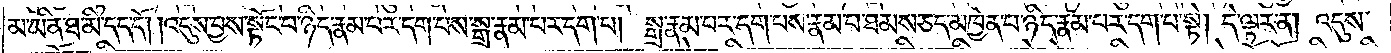མ་ཡིན་ཐ་མི་དད་དོ། །འདུས་བྱས་སྟོང་པ་ཉིད་རྣམ་པར་དག་པས་སྒྲ་རྣམ་པར་དག་པ། སྒྲ་རྣམ་པར་དག་པས་རྣམ་པ་ཐམས་ཅད་མཁྱེན་པ་ཉིད་རྣམ་པར་དག་པ་སྟེ། དེ་ལྟར་ན། འདུས་
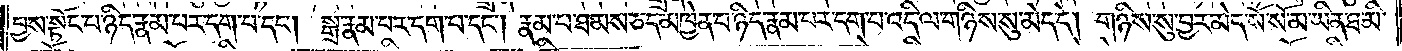བྱས་སྟོང་པ་ཉིད་རྣམ་པར་དག་པ་དང༌། སྒྲ་རྣམ་པར་དག་པ་དང༌། རྣམ་པ་ཐམས་ཅད་མཁྱེན་པ་ཉིད་རྣམ་པར་དག་པ་འདི་ལ་གཉིས་སུ་མེད་དེ། གཉིས་སུ་བྱར་མེད་སོ་སོ་མ་ཡིན་ཐ་མི་
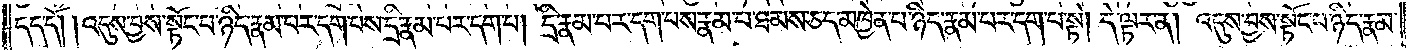དད་དོ། །འདུས་བྱས་སྟོང་པ་ཉིད་རྣམ་པར་དག་པས་དྲི་རྣམ་པར་དག་པ། དྲི་རྣམ་པར་དག་པས་རྣམ་པ་ཐམས་ཅད་མཁྱེན་པ་ཉིད་རྣམ་པར་དག་པ་སྟེ། དེ་ལྟར་ན། འདུས་བྱས་སྟོང་པ་ཉིད་རྣམ་
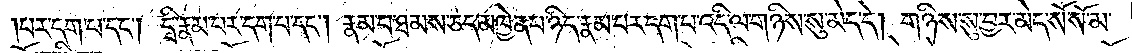པར་དག་པ་དང༌། དྲི་རྣམ་པར་དག་པ་དང༌། རྣམ་པ་ཐམས་ཅད་མཁྱེན་པ་ཉིད་རྣམ་པར་དག་པ་འདི་ལ་གཉིས་སུ་མེད་དེ། གཉིས་སུ་བྱར་མེད་སོ་སོ་མ་
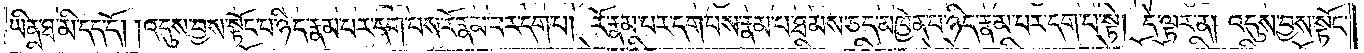ཡིན་ཐ་མི་དད་དོ། །འདུས་བྱས་སྟོང་པ་ཉིད་རྣམ་པར་དག་པས་རོ་རྣམ་པར་དག་པ། རོ་རྣམ་པར་དག་པས་རྣམ་པ་ཐམས་ཅད་མཁྱེན་པ་ཉིད་རྣམ་པར་དག་པ་སྟེ། དེ་ལྟར་ན། འདུས་བྱས་སྟོང་
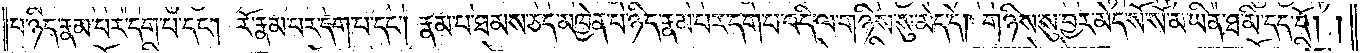པ་ཉིད་རྣམ་པར་དག་པ་དང༌། རོ་རྣམ་པར་དག་པ་དང༌། རྣམ་པ་ཐམས་ཅད་མཁྱེན་པ་ཉིད་རྣམ་པར་དག་པ་འདི་ལ་གཉིས་སུ་མེད་དེ། གཉིས་སུ་བྱར་མེད་སོ་སོ་མ་ཡིན་ཐ་མི་དད་དོ། །
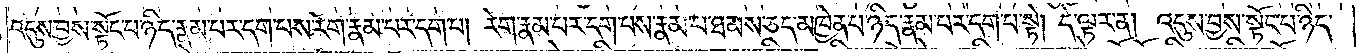འདུས་བྱས་སྟོང་པ་ཉིད་རྣམ་པར་དག་པས་རེག་རྣམ་པར་དག་པ། རེག་རྣམ་པར་དག་པས་རྣམ་པ་ཐམས་ཅད་མཁྱེན་པ་ཉིད་རྣམ་པར་དག་པ་སྟེ། དེ་ལྟར་ན། འདུས་བྱས་སྟོང་པ་ཉིད་
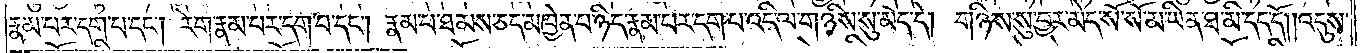རྣམ་པར་དག་པ་དང༌། རེག་རྣམ་པར་དག་པ་དང༌། རྣམ་པ་ཐམས་ཅད་མཁྱེན་པ་ཉིད་རྣམ་པར་དག་པ་འདི་ལ་གཉིས་སུ་མེད་དེ། གཉིས་སུ་བྱར་མེད་སོ་སོ་མ་ཡིན་ཐ་མི་དད་དོ། །འདུས་
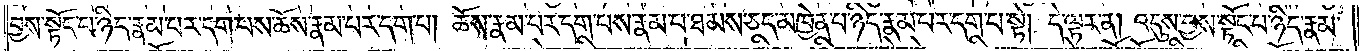བྱས་སྟོང་པ་ཉིད་རྣམ་པར་དག་པས་ཆོས་རྣམ་པར་དག་པ། ཆོས་རྣམ་པར་དག་པས་རྣམ་པ་ཐམས་ཅད་མཁྱེན་པ་ཉིད་རྣམ་པར་དག་པ་སྟེ། དེ་ལྟར་ན། འདུས་བྱས་སྟོང་པ་ཉིད་རྣམ་
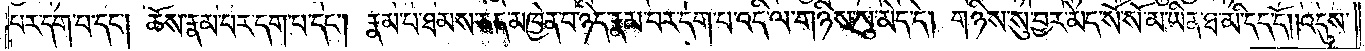པར་དག་པ་དང༌། ཆོས་རྣམ་པར་དག་པ་དང༌། རྣམ་པ་ཐམས་ཅད་མཁྱེན་པ་ཉིད་རྣམ་པར་དག་པ་འདི་ལ་གཉིས་སུ་མེད་དེ། གཉིས་སུ་བྱར་མེད་སོ་སོ་མ་ཡིན་ཐ་མི་དད་དོ། །འདུས་
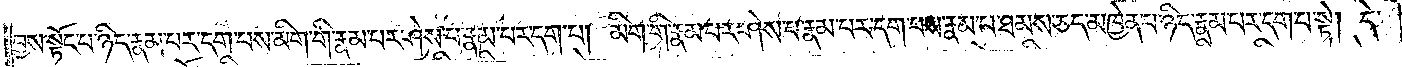བྱས་སྟོང་པ་ཉིད་རྣམ་པར་དག་པས་མིག་གི་རྣམ་པར་ཤེས་པ་རྣམ་པར་དག་པ། མིག་གི་རྣམ་པར་ཤེས་པ་རྣམ་པར་དག་པས་རྣམ་པ་ཐམས་ཅད་མཁྱེན་པ་ཉིད་རྣམ་པར་དག་པ་སྟེ། དེ་
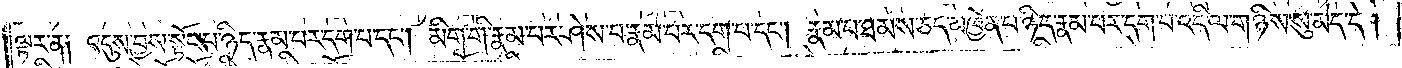ལྟར་ན༑ འདུས་བྱས་སྟོང་པ་ཉིད་རྣམ་པར་དག་པ་དང༌། མིག་གི་རྣམ་པར་ཤེས་པ་རྣམ་པར་དག་པ་དང༌། རྣམ་པ་ཐམས་ཅད་མཁྱེན་པ་ཉིད་རྣམ་པར་དག་པ་འདི་ལ་གཉིས་སུ་མེད་དེ།
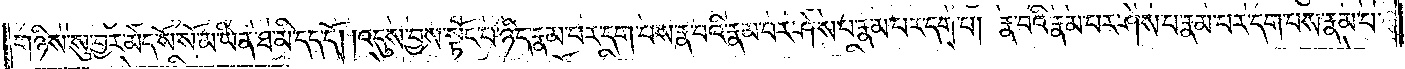གཉིས་སུ་བྱར་མེད་སོ་སོ་མ་ཡིན་ཐ་མི་དད་དོ། །འདུས་བྱས་སྟོང་པ་ཉིད་རྣམ་པར་དག་པས་རྣ་བའི་རྣམ་པར་ཤེས་པ་རྣམ་པར་དག་པ། རྣ་བའི་རྣམ་པར་ཤེས་པ་རྣམ་པར་དག་པས་རྣམ་པ་
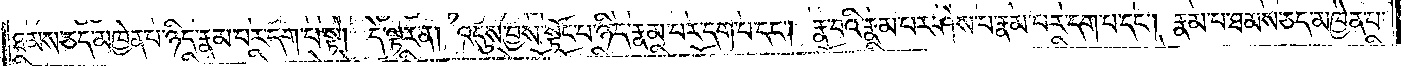ཐམས་ཅད་མཁྱེན་པ་ཉིད་རྣམ་པར་དག་པ་སྟེ། དེ་ལྟར་ན། འདུས་བྱས་སྟོང་པ་ཉིད་རྣམ་པར་དག་པ་དང༌། རྣ་བའི་རྣམ་པར་ཤེས་པ་རྣམ་པར་དག་པ་དང༌། རྣམ་པ་ཐམས་ཅད་མཁྱེན་པ་
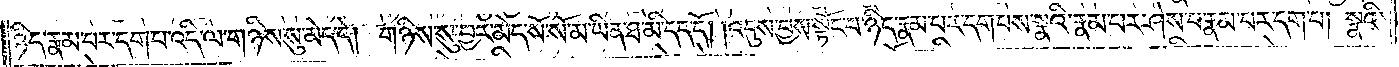ཉིད་རྣམ་པར་དག་པ་འདི་ལ་གཉིས་སུ་མེད་དེ། གཉིས་སུ་བྱར་མེད་སོ་སོ་མ་ཡིན་ཐ་མི་དད་དོ། །འདུས་བྱས་སྟོང་པ་ཉིད་རྣམ་པར་དག་པས་སྣའི་རྣམ་པར་ཤེས་པ་རྣམ་པར་དག་པ། སྣའི་
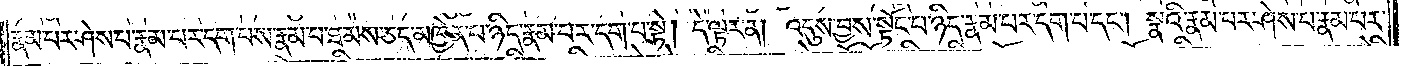རྣམ་པར་ཤེས་པ་རྣམ་པར་དག་པས་རྣམ་པ་ཐམས་ཅད་མཁྱེན་པ་ཉིད་རྣམ་པར་དག་པ་སྟེ། དེ་ལྟར་ན། འདུས་བྱས་སྟོང་པ་ཉིད་རྣམ་པར་དག་པ་དང༌། སྣའི་རྣམ་པར་ཤེས་པ་རྣམ་པར་
